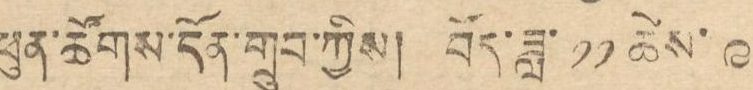ཕུན་ཚོགས་དོན་གྲུབ་ཀྱིས། བོད་ཟླ་ ༡༡ ཚེས་ ༩
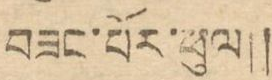བཟང་པོར་ཕུལ།།
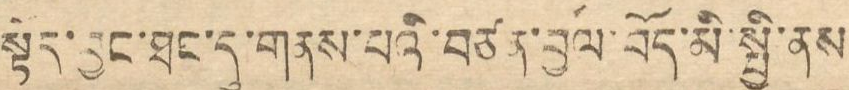སྟོད་བྱང་ཐང་དུ་གནས་པའི་བཙན་བྱོལ་བོད་མི་སྤྱི་ནས་
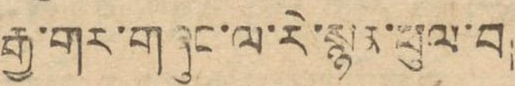རྒྱ་གར་གཞུང་ལ་རེ་སྙན་ཕུལ་བ།
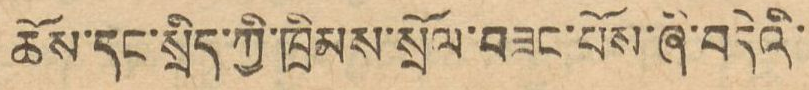ཆོས་དང་སྲིད་ཀྱི་ཁྲིམས་སྲོལ་བཟང་པོས་ཞི་བདེའི་
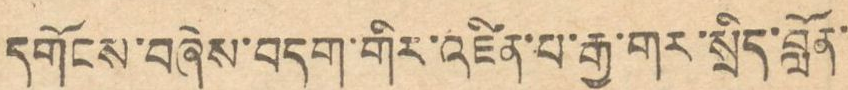དགོངས་བཞེས་བདག་གིར་འཛིན་པ་རྒྱ་གར་སྲིད་བློན་
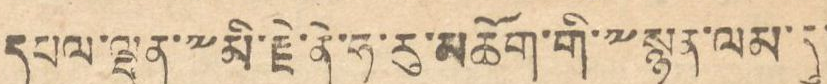དཔལ་ལྡན་༸མི་རྗེ་ནེ་ཧ་རུ་མཆོག་གི་༸སྙན་ལམ་དུ་
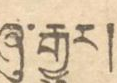ཞུ་རྒྱུར།
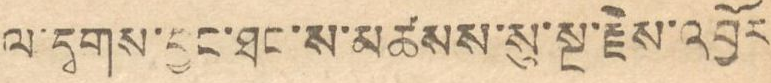ལ་དྭགས་བྱང་ཐང་ས་མཚམས་སུ་སྔ་རྗེས་འབྱོར
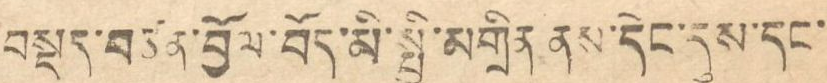བསྡད་བཙན་བྱོལ་བོད་མི་སྤྱི་མགྲིན ནས་དེང་དུས་དང་
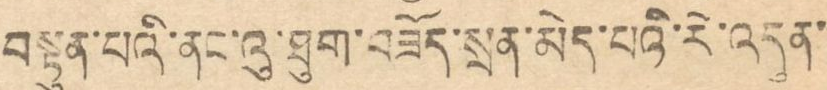བསྟུན་པའི་ནང་འུ་ཐུག་བཟོད་སྲན་མེད་པའི་རེ་འདུན་
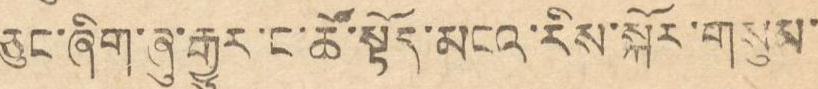ཅུང་ཞིག་ཞུ་རྒྱུར་ང་ཚོ་སྟོད་མངའ་རིས་སྐོར་གསུམ་
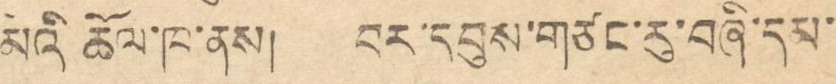མིའི ཆོལ་ཁ་ནས། བར་དབུས་གཙང་རུ་བཞི་དམ་
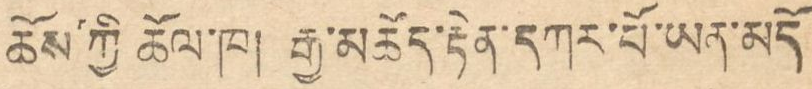ཆོས་ཀྱི ཆོལ་ཁ། རྒྱ་མཆོད་རྟེན་དཀར་པོ་ཡན་མདོ
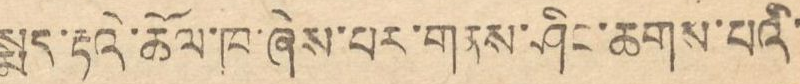སྨད་རྟའི་ཆོལ་ཁ་ཞེས་པར་གནས་ཤིང་ཆགས་པའི་
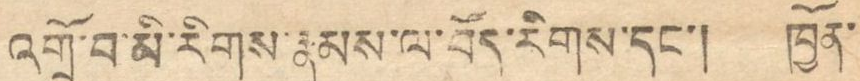འགྲོ་བ་མི་རིགས་རྣམས་ལ་བོད་རིགས་དང་། ཁྱོན་
